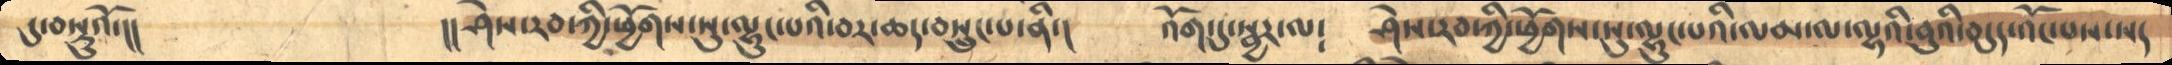དུ་བསྡུའོ་།།               །།ཤེས་རབ་ཀྱི་ཕྱོགས་སུ་ལྷུང་པའི་བར་ཆད་བསྲུང་པ་ནི་།     འོག་དུ་སྦྱར་ལ༴    ཤེས་རབ་ཀྱི་ཕྱོགས་སུ་ལྷུང་པའི་ལམ་ལ་ལྷའི་བུའི་བདུད་འོང་པས་སད
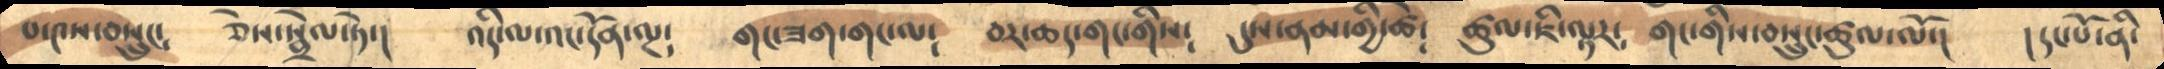པ་༤ས་བསྲུང༴    ཅེས་སྦྲེལ་ཏེ་།    འདི་ལ་འང་དོན་ལྔ༴   གང་ཟག་གང་ལ༴    བར་ཆད་གང་གིས༴   དུས་ནམ་གྱི་ཚེ༴    ཚུལ་ཇི་ལྟར༴  གང་གིས་བསྲུང་ཚུལ་ལོ་།   །དང་པོ་ནི་
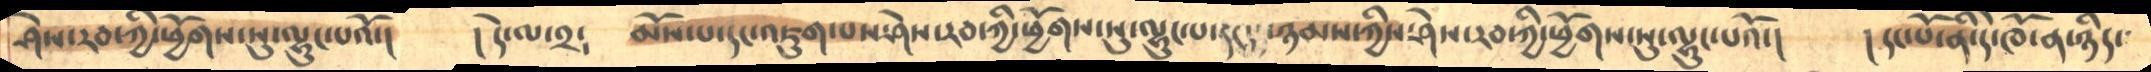ཤེས་རབ་ཀྱི་ཕྱོགས་སུ་ལྷུང་པའོ་།     །དེ་ལ་༢༴    མོས་པ་དང་འཇུག་པས་ཤེས་རབ་ཀྱི་ཕྱོགས་སུ་ལྷུང་པ་དང༴ ཉམས་ཀྱིས་ཤེས་རབ་ཀྱི་ཕྱོགས་སུ་ལྷུང་པའོ་།    །དང་པོ་ནི་དེ་ཁོ་ན་ཉིད་
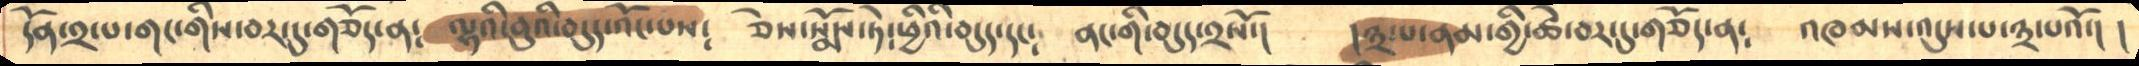དོན་༢་པ་གང་གིས་བར་དུ་གཅོད་ན༴   ལྷའི་བུའི་བདུད་འོང་པས༴   ཅེས་སྨོས་ཏེ་ཕྱིའི་བདུད་དང༴   ནང་གི་བདུད་༢སོ་།    །༣་པ་ནམ་གྱི་ཚེ་བར་དུ་གཅོད་ན༴   འཁམས་འདུས་པ་༣་པའོ་། །
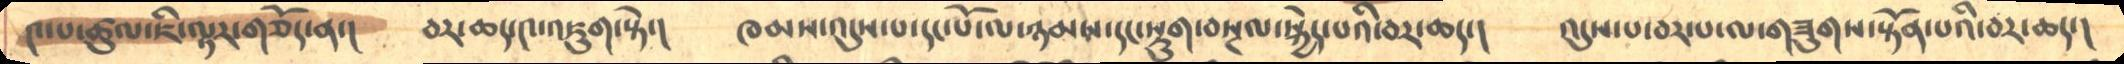༤་པ་ཚུལ་ཇི་ལྟར་གཅོད་ན་།    བར་ཆད་༤་འཇུག་སྟེ་།    ཁམས་འདུས་པ་དང་པོ་ལ་ཉམས་དང་སྡུག་བསྔལ་སྐྱེད་པའི་བར་ཆད་།    འདུས་པ་བར་པ་ལ་གཟུགས་སྟོན་པའི་བར་ཆད་།
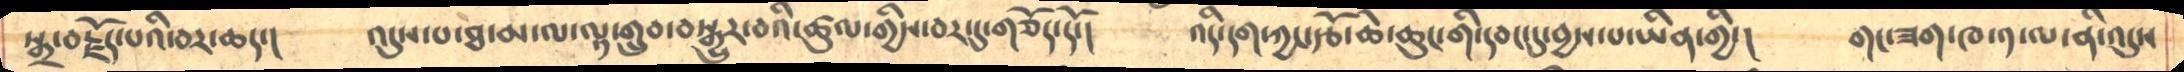སྒྲ་བརྗོད་པའི་བར་ཆད་།    འདུས་པ་ཐ་མ་ལ་ལྟ་གྲུབ་བསྒྱུར་བའི་ཚུལ་གྱིས་བར་དུ་གཅོད་དོ་།   འདི་དག་ཀྱང་རྩོ་ཆེ་ཆུང་གི་དབང་དུ་བྱས་པ་ཡིན་གྱི་།     གང་ཟག་ཁ་༡་ལ་ནི་འདུས
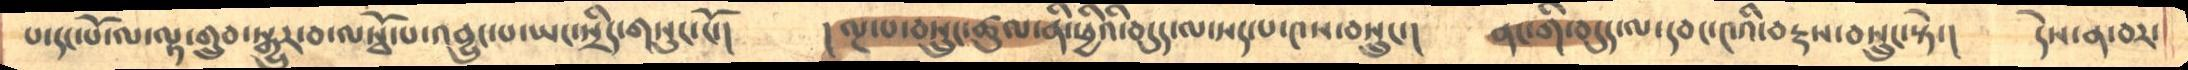པ་དང་པོ་ལ་ལྟ་གྲུབ་སྒྱུར་བ་ལསྭོ་པ་འབྱུང་པ་ཡང་སྲིད་གསུང་ངོ་།     །ལྔ་པ་བསྲུང་ཚུལ་ནི་ཕྱིའི་བདུད་ལ་སད་པ་༤ས་བསྲུང་།    ནང་གི་བདུད་ལ་དབང་༤འི་བརྡས་བསྲུང་སྟེ་།   དེས་ན་བར་
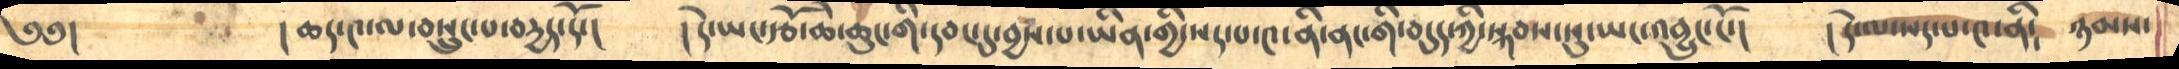༄༅།          ། ཆད་༤་ལ་བསྲུང་པ་བདྱད་དོ་།    །དེ་ཡང་རྩོ་ཆེ་ཆུང་གི་དབང་དུ་བྱས་པ་ཡིན་གྱི་སད་པ་༤་ནི་ནང་གི་བདུད་ཀྱི་སྐབས་སུ་ཡང་འབྱུང་ངོ་།   །དེ་ལ་སད་པ་༤་ནི༴  ཉམས་
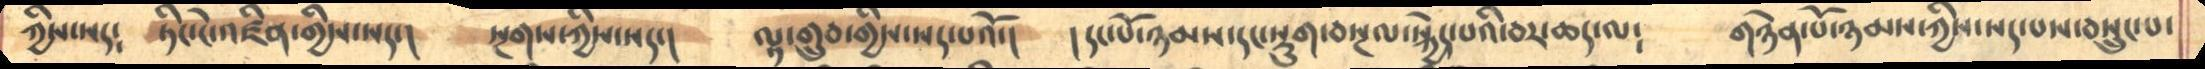ཀྱིས་སད༴    ཏིང་ངེ་འཛིན་གྱིས་སད་།    སྔགས་ཀྱིས་སད་།   ལྟ་གྲུབ་གྱིས་སད་པའོ་།   །དང་པོ་ཉམས་དང་སྡུག་བསྔལ་སྐྱེད་པའི་བར་ཆད་ལ༴   གཉེན་པོ་ཉམས་ཀྱིས་སད་པས་བསྲུང་པ་
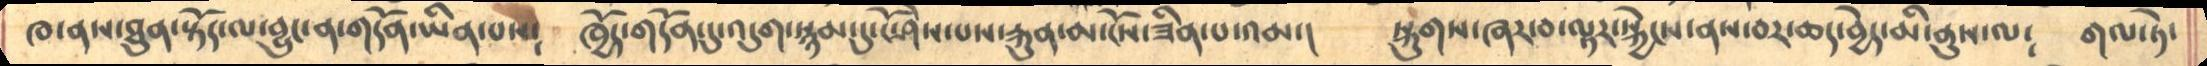ཁ་ནས་ཐུན་སྟོད་ལ་བྱུང་ན་གདོན་ཡིན་པས༴    ཁྱོད་གདོན་དུ་འདུག་སྙམ་དུ་ངོ་ཤེས་པས་རྐུན་མ་ངོས་ཟིན་པ་འམ་།    སྐུགས་ཞར་བ་ལྟར་སྐྱེངས་ནས་བར་ཆད་བྱེད་མི་ནུས་ལ༴  གལ་ཏེ་
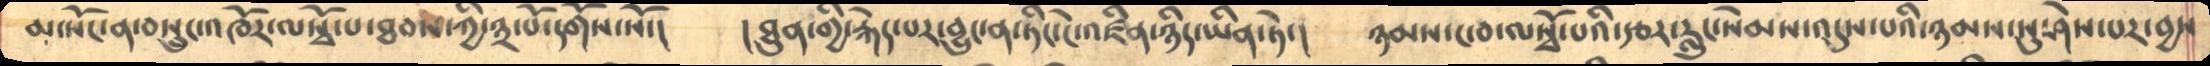མ་སོང་ན་བསྲུང་འཁོར་ལསྭོ་པ་ཐབས་ཀྱི་༣་པོ་དགོས་སོ་།     །ཐུན་གྱི་རྐེད་པར་བྱུང་ན་ཏིང་ངེ་འཛིན་ཉིད་ཡིན་ཏེ་།     ཉམས་ང་བ་ལསྭོ་པའི་རྩར་རླུང་སེམས་འདུས་པའི་ཉམས་སུ་ཤེས་པར་བྱས
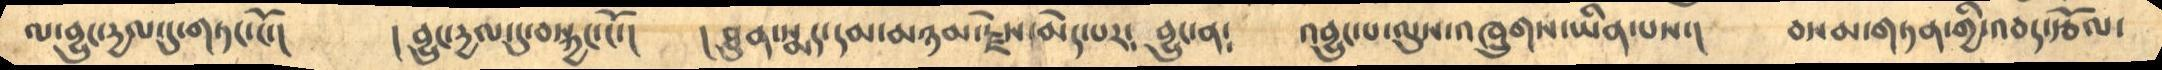ལ་བྱུང་དྱལ་དུ་གཏང་ངོ་།     ། བྱུང་དྱལ་དུ་བསྐྱང་ངོ་།    ། ཐུན་སྨད་དམ་མཉམ་རྗེས་མེད་པར༴ བྱུང་ན༴   འབྱུང་པ་ལུས་འཁྲུགས་ཡིན་པས་།   བསམ་གཏན་གྱི་འབད་རྩོལ་
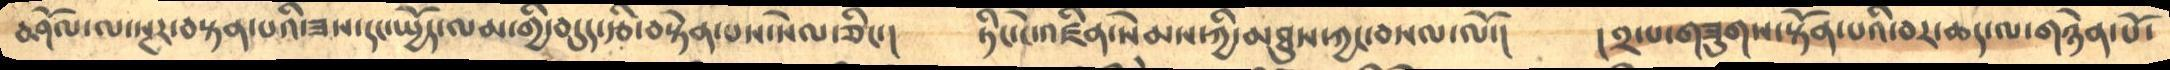བཤོལ་ལ་སྔར་བསྟན་པའི་ཟས་དང་སྤྱོད་ལམ་གྱི་བདུད་རྩི་བསྟེན་པས་སེལ་ཅིང་།     ཏིང་ངེ་འཛིན་སེམས་ཀྱི་མཐུས་ཀྱང་བསལ་ལོ་།   ། ༢་པ་གཟུགས་སྟོན་པའི་བར་ཆད་ལ་གཉེན་པོ་
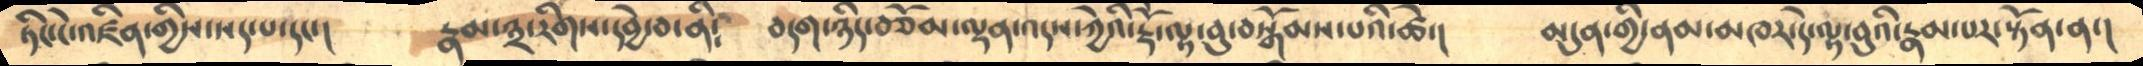ཏིང་ངེ་འཛིན་གྱིས་སད་པ་དང་།      རྣམ་༣་རིགས་དབྱེ་བ་ནི༴     བདག་ཉིད་བཅོམ་ལྡན་འདས་ཀྱེའི་རྡོེ་ལྟ་བུ་བསྒོམས་པའི་ཚེ་།   མདུན་གྱི་ནམ་མཁར་དེ་ལྟ་བུའི་རྣམ་པར་སྟོན་ན་།
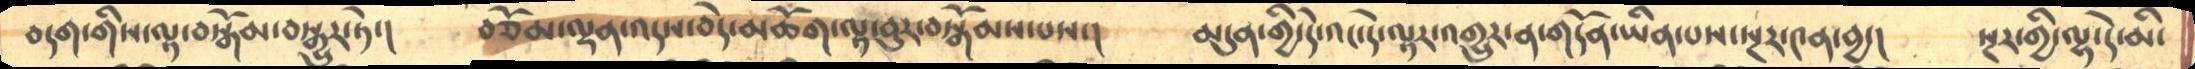བདག་གིས་ལྟ་བསྒོམ་བསྒྱུར་ཏེ་།    བཅོམ་ལྡན་འདས་བདེ་མཆོག་ལྟ་བུར་བསྒོམས་པས་།    མདུན་གྱི་དེ་འང་དེ་ལྟར་འགྱུར་ན་གདོན་ཡིན་པས་སྔར་༤ན་བྱ་།   སྔར་གྱི་ལྷ་དེ་མི་
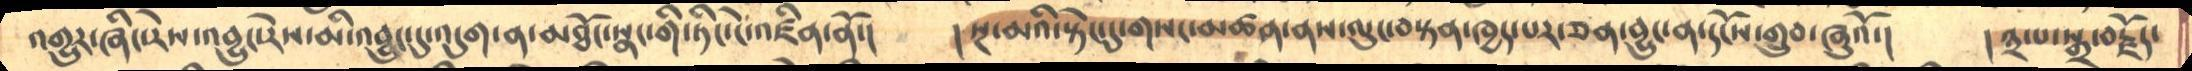འགྱུར་ཞིང་རེས་འབྱུང་རེས་མི་འབྱུང་དུ་འདུག་ན་མཐོང་སྣང་གི་ཏིང་ངེ་འཛིན་ནོ་།   །སྔ་མའི་སྟེང་དུ་གསང་མཚན་ནས་ལུང་བསྟན་ཁྱད་པར་ཅན་བྱུང་ན་དངོས་གྲུབ་ཞུའོ་།    །༣་པ་སྒྲ་བརྗོད་
